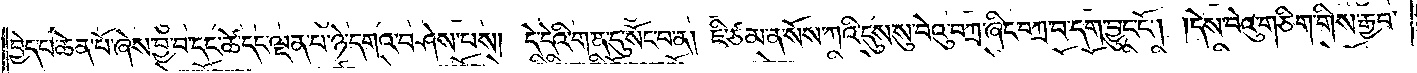བྱེད་པ་ཆེན་པོ་ཞེས་བྱ་བ་དང་ཚེ་དང་ལྡན་པ་ཉེ་དགའ་བཤེས་པས། དེ་དེའི་གན་དུ་སོང་བ་ན། ཇི་ཙམ་ན་སོས་ཀའི་དུས་སུ་བེའུ་བཀྲ་ཞིང་བཀྲ་བ་དག་བྱུང་ངོ༌། །དེས་བེའུ་གཅིག་གིས་རྒྱབ་
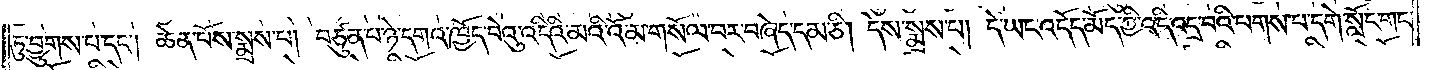ཏུ་བྱུགས་པ་དང༌། ཆེན་པོས་སྨྲས་པ། བཙུན་པ་ཉེ་དགའ་ཁྱོད་བེའུ་འདིའི་མའི་འོ་མ་གསོལ་བར་བཞེད་དམ་ཅི། དེས་སྨྲས་པ། དེ་ཡང་འདོད་མོད་ཀྱི་འདི་འདྲ་བའི་པགས་པ་དགེ་སློང་གང་
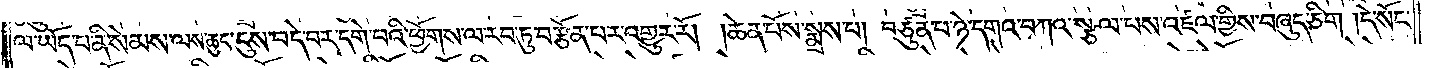ལ་ཡོད་པ་ནི་སེམས་ལས་ཆུང་ངུས་བདེ་བར་དགེ་བའི་ཕྱོགས་ལ་རབ་ཏུ་བརྩོན་པར་འགྱུར་རོ། །ཆེན་པོས་སྨྲས་པ། བཙུན་པ་ཉེ་དགའ་བཀའ་སྩལ་པས་འཛལ་གྱིས་བཞུད་ཅིག །དེ་སོང་
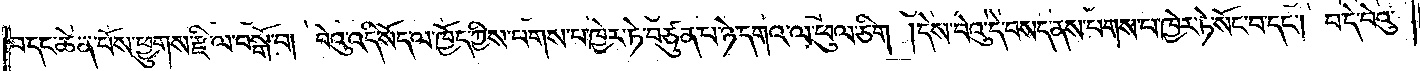བ་དང་ཆེན་པོས་ཕྱུགས་རྫི་ལ་བསྒོ་བ། བེའུ་འདི་སོད་ལ་ཁྱོད་ཀྱིས་པགས་པ་ཁྱེར་ཏེ་བཙུན་པ་ཉེ་དགའ་ལ་ཕུལ་ཅིག །དེས་བེའུ་དེ་བསད་ནས་པགས་པ་ཁྱེར་ཏེ་སོང་བ་དང༌། བ་དེ་བེའུ་
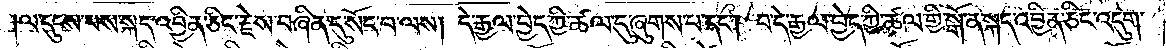ལ་དུངས་པས་སྐད་འབྱིན་ཅིང་རྗེས་བཞིན་དུ་སོང་བ་ལས། དེ་རྒྱལ་བྱེད་ཀྱི་ཚལ་དུ་ཞུགས་པ་དང༌། བ་དེ་རྒྱལ་བྱེད་ཀྱི་ཚལ་གྱི་སྒོ་ན་སྐད་འབྱིན་ཅིང་འདུག་
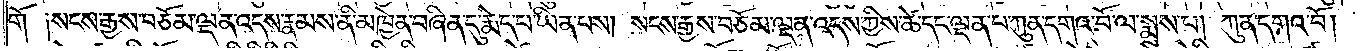གོ༑ སངས་རྒྱས་བཅོམ་ལྡན་འདས་རྣམས་ནི་མཁྱེན་བཞིན་དུ་རྨེད་པ་ཡིན་པས། སངས་རྒྱས་བཅོམ་ལྡན་འདས་ཀྱིས་ཚེ་དང་ལྡན་པ་ཀུན་དགའ་བོ་ལ་སྨྲས་པ། ཀུན་དགའ་བོ།
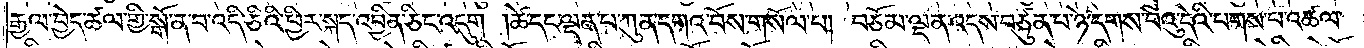རྒྱལ་བྱེད་ཚལ་གྱི་སྒོ་ན་བ་འདི་ཅིའི་ཕྱིར་སྐད་འབྱིན་ཅིང་འདུག །ཚེ་དང་ལྡན་པ་ཀུན་དགའ་བོས་གསོལ་པ། བཅོམ་ལྡན་འདས་བཙུན་པ་ཉེ་དགས་བེའུ་དེའི་པགས་པ་འཚལ་
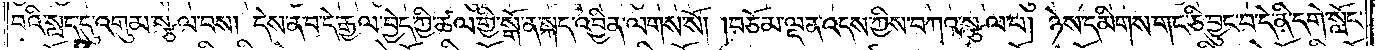བའི་སླད་དུ་འགུམ་སྩལ་བས། དེས་ན་བ་དེ་རྒྱལ་བྱེད་ཀྱི་ཚལ་གྱི་སྒོ་ན་སྐད་འབྱིན་ལགས་སོ། །བཅོམ་ལྡན་འདས་ཀྱིས་བཀའ་སྩལ་པ། ཉེས་དམིགས་གང་ཅི་བྱུང་བ་དེ་ནི་དགེ་སློང་
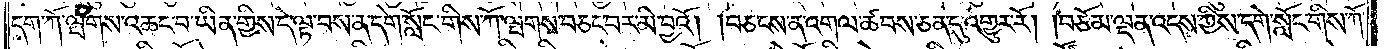དག་ཀོ་ལྤགས་འཆང་བ་ཡིན་གྱིས་དེ་ལྟ་བས་ན་དགེ་སློང་གིས་ཀོ་ལྤགས་བཅང་བར་མི་བྱའོ། །བཅངས་ན་འགལ་ཚབས་ཅན་དུ་འགྱུར་རོ། །བཅོམ་ལྡན་འདས་ཀྱིས་དགེ་སློང་གིས་ཀོ་
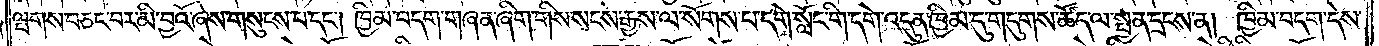ལྤགས་བཅང་བར་མི་བྱའོ་ཞེས་གསུངས་པ་དང༌། ཁྱིམ་བདག་གཞན་ཞིག་གིས་སངས་རྒྱས་ལ་སོགས་པ་དགེ་སློང་གི་དགེ་འདུན་ཁྱིམ་དུ་གདུགས་ཚོད་ལ་སྤྱན་དྲངས་ན། ཁྱིམ་བདག་དེས་
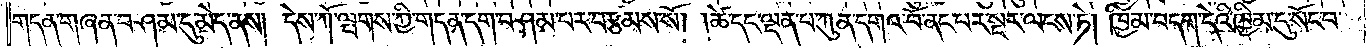གདན་གཞན་བཤམ་དུ་མེད་ནས། དེས་ཀོ་ལྤགས་ཀྱི་གདན་དག་བཤམ་པར་བརྩམས་སོ། །ཚེ་དང་ལྡན་པ་ཀུན་དགའ་བོ་ནང་པར་སྔར་ལངས་ཏེ། ཁྱིམ་བདག་དེའི་ཁྱིམ་དུ་སོང་བ་
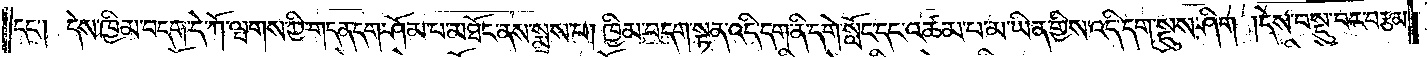དང༌། དེས་ཁྱིམ་བདག་དེ་ཀོ་ལྤགས་ཀྱི་གདན་དག་ཤོམ་པ་མཐོང་ནས་སྨྲས་པ། ཁྱིམ་བདག་སྟན་འདི་དག་ནི་དགེ་སློང་དང་འཚམ་པ་མ་ཡིན་གྱིས་འདི་དག་སྡུས་ཤིག །དེས་བསྡུ་བར་བརྩམ་
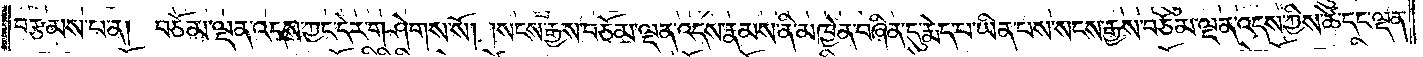བརྩམས་པ་ན། བཅོམ་ལྡན་འདས་ཀྱང་དེར་གཤེགས་སོ། །སངས་རྒྱས་བཅོམ་ལྡན་འདས་རྣམས་ནི་མཁྱེན་བཞིན་དུ་རྨེད་པ་ཡིན་པས་སངས་རྒྱས་བཅོམ་ལྡན་འདས་ཀྱིས་ཚེ་དང་ལྡན་
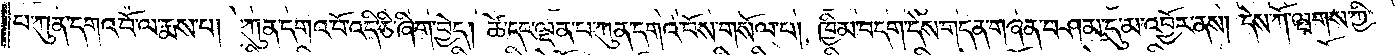པ་ཀུན་དགའ་བོ་ལ་རྨས་པ། ཀུན་དགའ་བོ་འདི་ཅི་ཞིག་བྱེད། ཚེ་དང་ལྡན་པ་ཀུན་དགའ་བོས་གསོལ་པ། ཁྱིམ་བདག་དེས་གདན་གཞན་བཤམ་དུ་མ་འབྱོར་ནས། དེས་ཀོ་ལྤགས་ཀྱི་
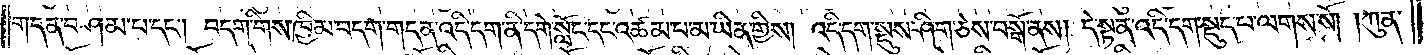གདན་བཤམ་པ་དང༌། བདག་གིས་ཁྱིམ་བདག་གདན་འདི་དག་ནི་དགེ་སློང་དང་འཚམ་པ་མ་ཡིན་གྱིས། འདི་དག་སྡུས་ཤིག་ཅེས་བསྒོ་ནས། དེ་སྟན་འདི་དག་སྡུད་པ་ལགས་སོ། །ཀུན་
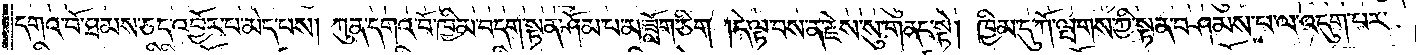དགའ་བོ་ཐམས་ཅད་འབྱོར་པ་མེད་པས། ཀུན་དགའ་བོ་ཁྱིམ་བདག་སྟན་ཤོམ་པ་མ་ཟློག་ཅིག །དེ་ལྟ་བས་ན་རྗེས་སུ་གནང་སྟེ། ཁྱིམ་དུ་ཀོ་ལྤགས་ཀྱི་སྟན་བཤམས་པ་ལ་འདུག་པར་
